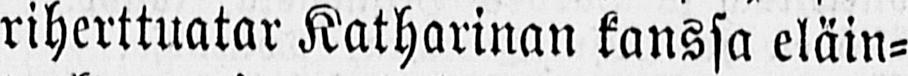riherttuatar Katharinan kanssa eläin-
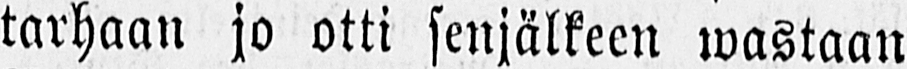tarhaan jo otti senjälkeen wastaan
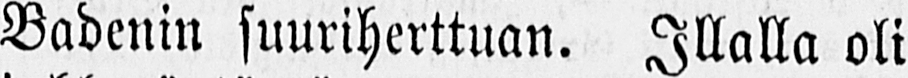Badenin suuriherttuan. Illalla oli
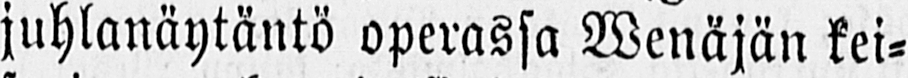juhlanäytäntö operassa Wenäjän kei-
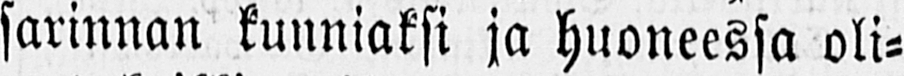sarinnan kunniaksi ja huoneessa oli-
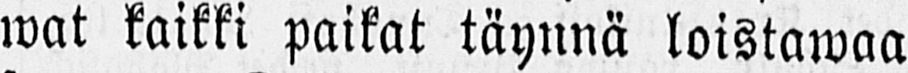wat kaikki paikat täynnä loistawaa
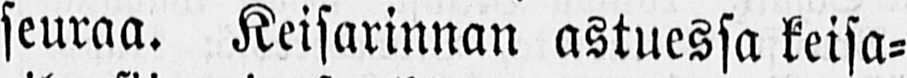seuraa. Keisarinnan astuessa keisa-
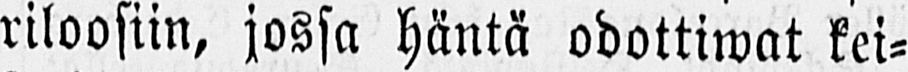riloosiin, jossa häntä odottiwat kei-
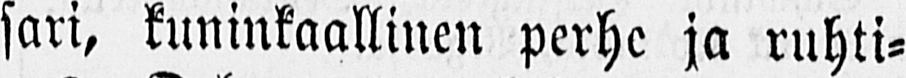sari, kuninkaallinen perhe ja ruhti-
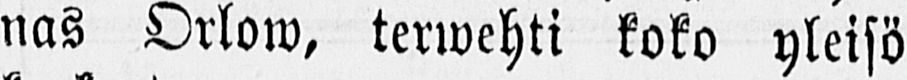nas Orlow, terwehti koko yleisö
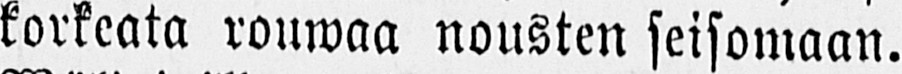korkeata rouwaa nousten seisomaan.
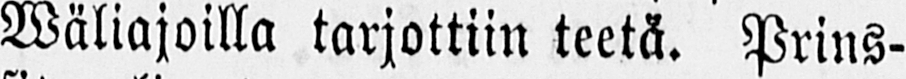Wäliajoilla tarjottiin teetä. Prins-
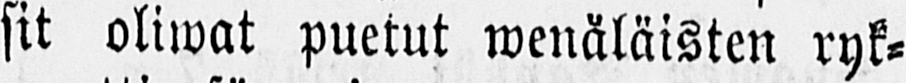sit oliwat puetut wenäläisten ryk-
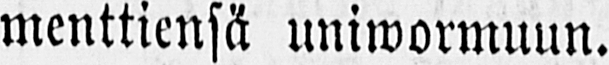menttiensä uniwormuun.
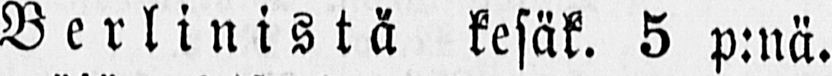Berlinistä kesäk. 5 p:nä.
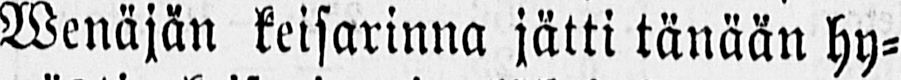Wenäjän keisarinna jätti tänään hy-
